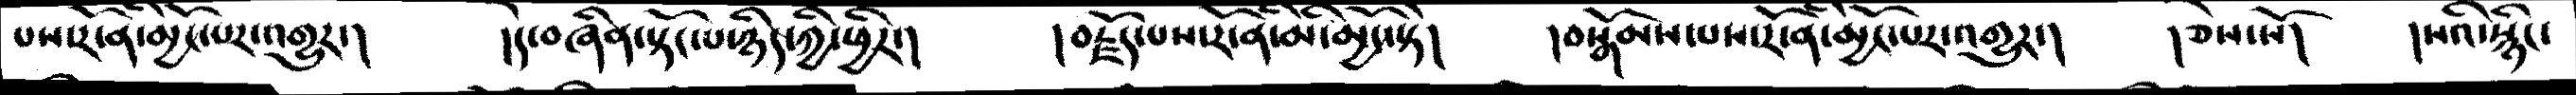པས་རོ་ནི་མྱོང་པར་འགྱུར་།    །དེ་བཞིན་སྟོང་པ་ཉིད་ཀྱི་ཕྱིར་།     །བརྗོད་པས་རོ་ནི་མི་མྱོང་སྟེ།    །བསྒོམས་པས་རོ་ནི་མྱོང་པར་འགྱུར་།    །ཅེས་སོ།   །སའི་སྙིང་
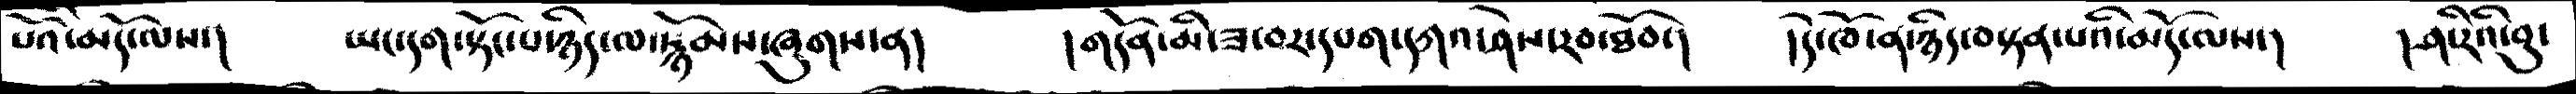པོའི་མདོ་ལས་།    ཡང་དག་སྟོང་པ་ཉིད་ལ་སྙོམས་ཞུགས་ན།      །གདོན་མི་ཟ་བར་དཔག་དཀའ་ཤེས་རབ་ཐོབ་།   །དེ་ཁོ་ན་ཉིད་བསྟན་པའི་མདོ་ལས་།   ། ཤ་རིའི་བུ་
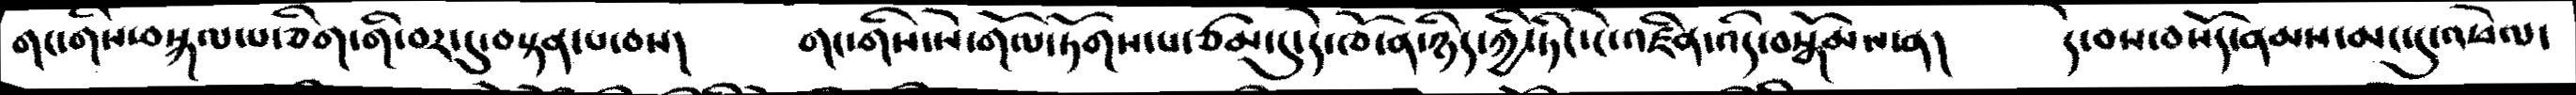གང་གིས་བསྐལ་པ་ཅིག་གི་བར་དུ་བསྟན་པ་བས།  གང་གིས་སེ་གོལ་ཏོགས་པ་ཙམ་དུ་དེ་ཁོ་ན་ཉིད་ཀྱི་ཏིང་ངེ་འཛིན་འདི་བསྒོམས་ན།  དེ་བས་བསོད་ནམས་མང་དུ་འཕེལ་
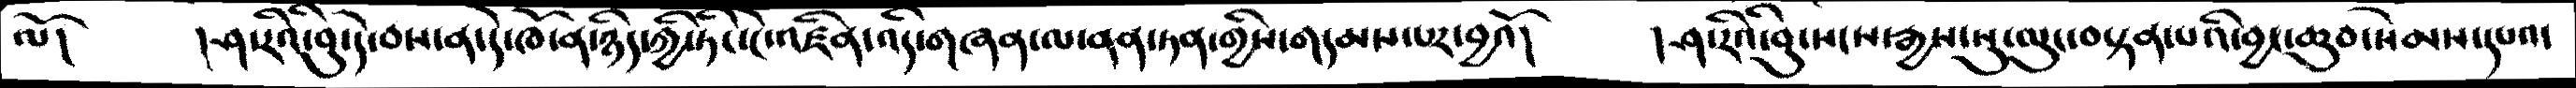ལོ།   །ཤ་རིའི་བུ་དེ་བས་ན་དེ་ཁོ་ན་ཉིད་ཀྱི་ཏིང་ངེ་འཛིན་འདི་གཞན་ལ་ནན་ཏན་གྱིས་གདམས་པར་བྱའོ།  །ཤ་རིའི་བུ་སངས་རྒྱས་སུ་ལུང་བསྟན་པའི་བྱང་ཆུབ་སེམས་དཔའ་
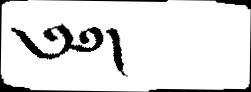༄༅།
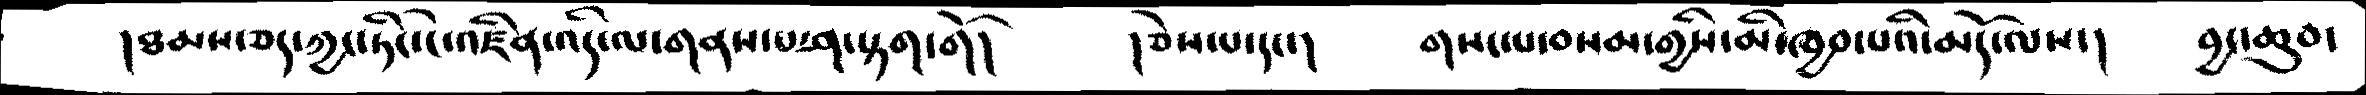།ཐམས་ཅད་ཀྱང་ཏིང་ངེ་འཛིན་འདི་ལ་གནས་པ་ཤ་སྟག་གོ།   །ཅེས་པ་དང་།  གསང་པ་བསམ་གྱིས་མི་ཁྱབ་པའི་མདོ་ལས་།  བྱང་ཆུབ་
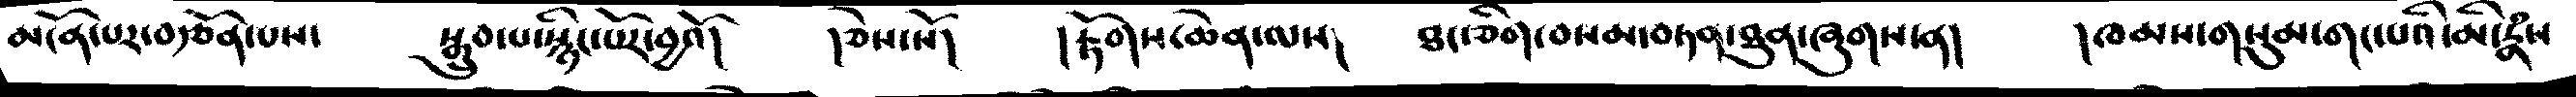མངོན་པར་བརྩོན་པས་   སྒྲུབ་པ་སྙིང་པོར་བྱའོ།  །ཅེས་སོ།  །རྟོགས་ཆེན་ལས།  ཐང་ཅིག་བསམ་བཏན་ཐུན་ཞུགས་ན།  །ཁམས་གསུམ་གང་པའི་མི་རྣཾས
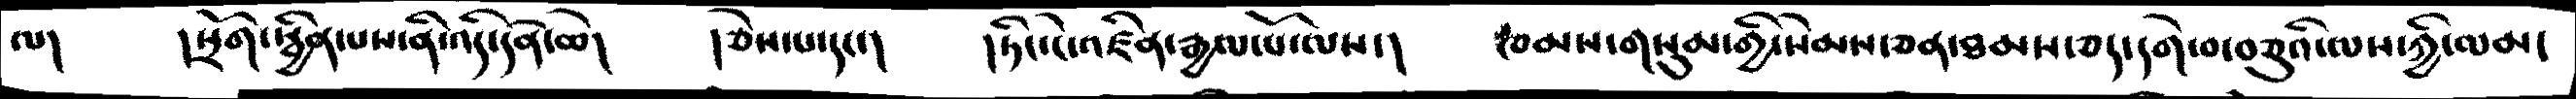ལ།   །སྲོག་སྦྱིན་པས་ནི་འདི་དོན་ཆེ།  །ཅེས་པ་དང་།  །ཏིང་ངེ་འཛིན་རྒྱལ་པོ་ལས་།  ཁམས་གསུམ་གྱི་སེམས་ཅན་ཐམས་ཅད་དགེ་བ་བཅུའི་ལས་ཀྱི་ལམ་
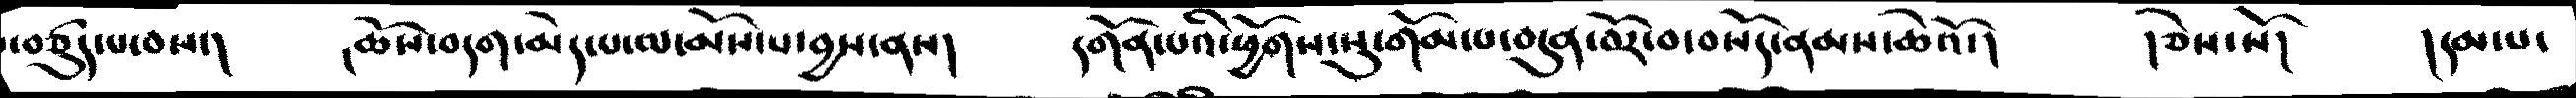བཙུད་པ་བས་།  ཆོས་བདག་མེད་པ་ལ་མོས་པ་བྱས་ནས།  དགོན་པའི་ཕྱོགས་སུ་གོམ་པ་བདུན་བོར་བ་བསོད་ནམ་ཆེའོ་།   །ཅེས་སོ།  །དམ་པ་
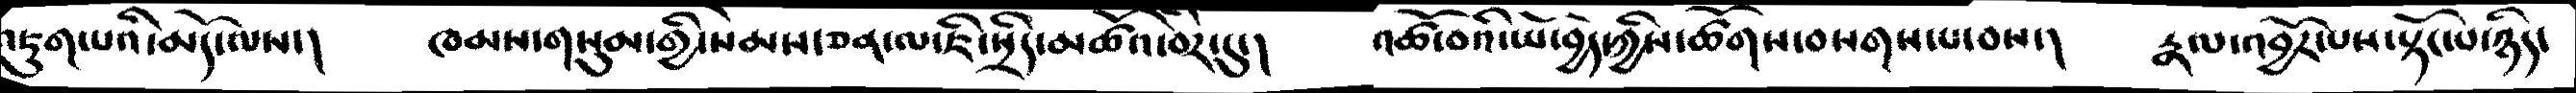འཇུགས་པའི་མདོ་ལས་།  ཁམས་གསུམ་གྱི་སེམས་ཅན་ལ་ཇི་སྲིད་མཚོའ་བར་དུ་།  འཚོ་བའི་ཡོ་བྱེད་ཀྱིས་ཚོགས་བསག་པ་བས་།  རྣམ་འབྲོར་པས་སྟོང་པ་ཉིད་
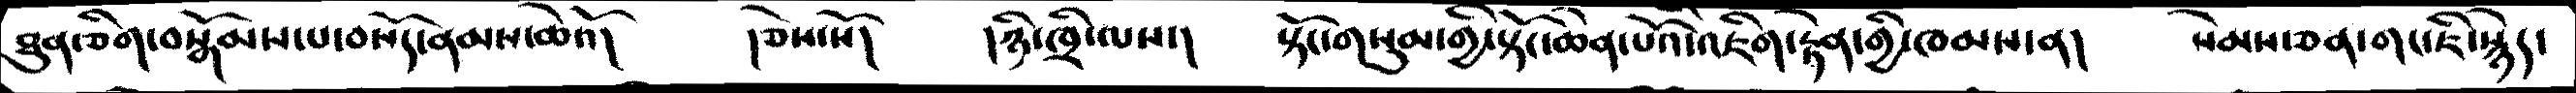ཐུན་ཅིག་བསྒོམས་པ་བསོད་ནམས་ཆེའོ།   ཅེས་སོ།   །ཉི་ཁྲི་ལས་།   སྟོང་གསུམ་གྱི་སྟོང་ཆེན་པོའི་འཇིག་རྟེན་གྱི་ཁམས་མ།  སེམས་ཅན་གང་ཇི་སྙིད་
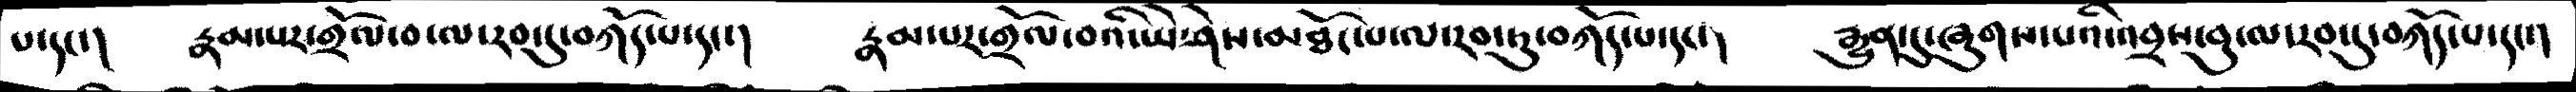པ་དང་།  རྣམ་པར་གྲོལ་བ་ལ་རབ་དུ་བཀོད་པ་དང་།  རྣམ་པར་གྲོལ་བའི་ཡེ་ཤེས་མཐོང་པ་ལ་རབ་ཏུ་བཀོད་པ་དང་།  རྒྱུན་དུ་ཞུགས་པའི་འབྲས་བུ་ལ་རབ་དུ་བཀོད་པ་དང་།
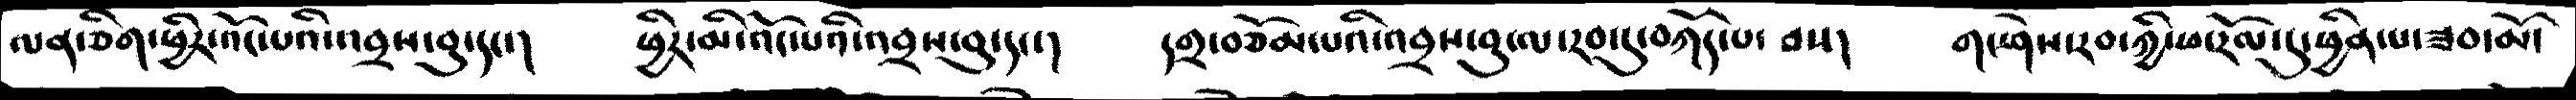ལན་ཅིག་ཕྱིར་འོང་པའི་འབྲས་བུ་དང་།  ཕྱིར་མི་འོང་པའི་འབྲས་བུ་དང་།  དགྲ་བཅོམ་པའི་འབྲས་བུ་ལ་རབ་དུ་བཀོད་པ་བས།  གང་ཤེས་རབ་ཀྱི་ཕ་རོལ་དུ་ཕྱིན་པ་ཟབ་མོ་
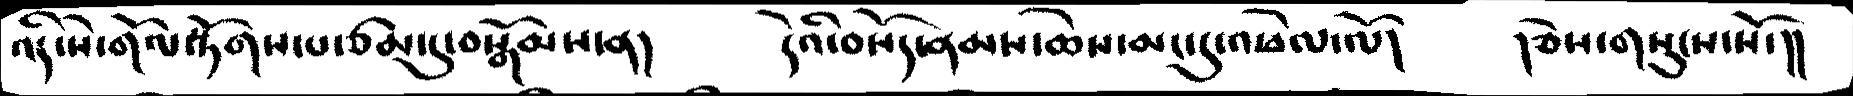འདི་སེ་གོལ་རྟོགས་པ་ཙམ་དུ་བསྒོམས་ན།   དེའི་བསོད་ནམས་ཆེས་མང་དུ་འཕེལ་ལོ།  །ཅེས་གསུངས་སོ་།།
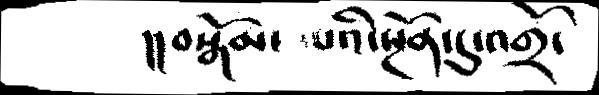།།བསྒོམ་ པའི་སྔོན་དུ་འགྲོ་
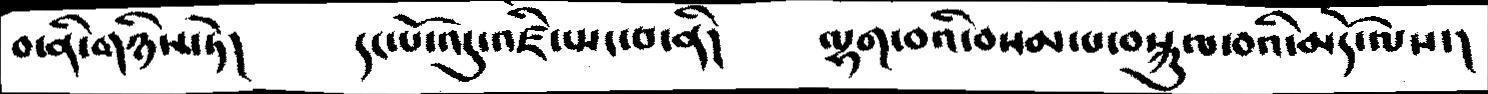བ་ནི་གཉིས་ཏེ།   དང་པོ་འདུ་འཛི་སྤང་བ་ནི།  ལྷག་བའི་བསམ་པ་བསྐུལ་བའི་མདོ་ལས་།
